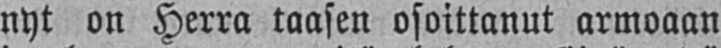nyt on Herra taasen osoittanut armoaan
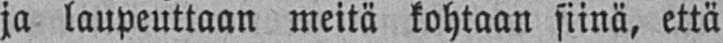ja laupeuttaan meitä kohtaan siinä, että
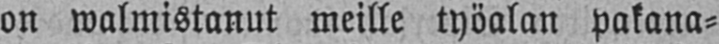on walmistanut meille työalan pakana-
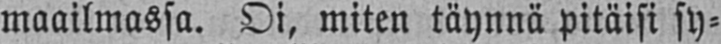maailmassa. Oi, miten täynnä pitäisi sy-
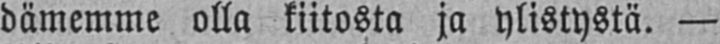dämemme olla kiitosta ja ylistystä. —
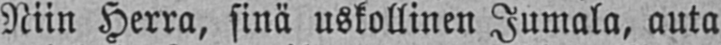Niin Herra, sinä uskollinen Jumala, auta
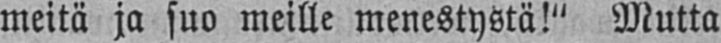meitä ja suo meille menestystä!" Mutta
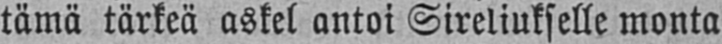tämä tärkeä askel antoi Sireliukselle monta
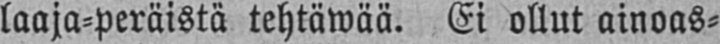laaja-peräistä tehtäwää. Ei ollut ainoas-
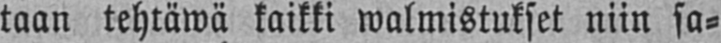taan tehtäwä kaikki walmistukset niin sa-
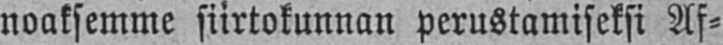noaksemme siirtokunnan perustamiseksi Af-
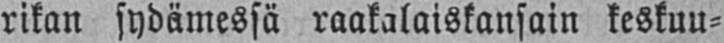rikan sydämessä raakalaiskansain keskuu-
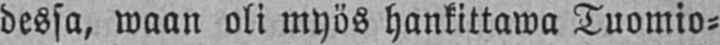dessa, waan oli myös hankittawa Tuomio-
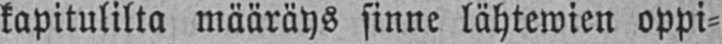kapitulilta määräys sinne lähtewien oppi-
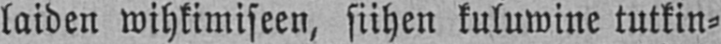laiden wihkimiseen, siihen kuluwine tutkin-
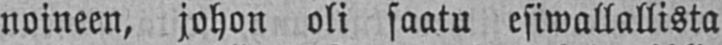noineen, johon oli saatu esiwallallista
